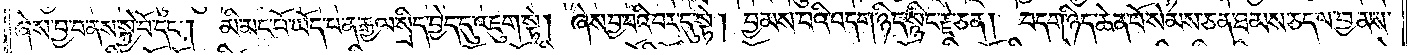ཞེས་བྱ་བ་ནས་སྐྱེ་བོ་དང༌།  མི་མང་པོ་ཡོད་པ་ན་རྒྱལ་སྲིད་བྱེད་དུ་འཇུག་སྟེ། ཞེས་བྱ་བའི་བར་དུ་སྟེ། བྱམས་པའི་བདག་ཉིད་སྙིང་རྗེ་ཅན། བདག་ཉིད་ཆེན་པོ་སེམས་ཅན་ཐམས་ཅད་ལ་བྱམས་
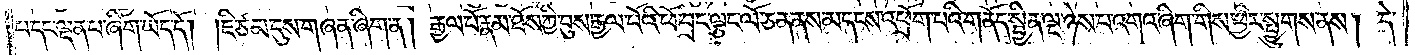པ་དང་ལྡན་པ་ཞིག་ཡོད་དོ། །ཇི་ཙམ་དུས་གཞན་ཞིག་ན། རྒྱལ་པོ་རྣམ་ཐོས་ཀྱི་བུས་རྒྱལ་པོའི་ཕོ་བྲང་ལྕང་ལོ་ཅན་ནས་མདངས་འཕྲོག་པའི་གནོད་སྦྱིན་ལྔ་ཉེས་པ་འགའ་ཞིག་གི་ཕྱིར་སྤྱུགས་ནས། དེ་
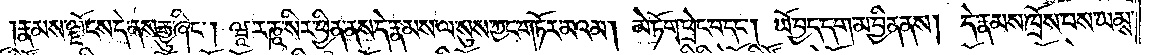།རྣམས་ལྗོངས་དེ་ནས་རྒྱུ་ཞིང༌། ཝཱ་ར་ཎཱ་སིར་ཕྱིན་ནས་དེ་རྣམས་ལ་སུས་ཀྱང་གཏོར་མའམ། མེ་ཏོག་ཕྲེང་བ་དང༌། ཡོ་བྱད་དག་མ་བྱིན་ནས། དེ་རྣམས་ཁྲོས་པས་ཡམས་
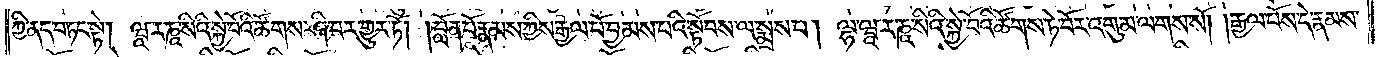ཀྱི་ནད་བཏང་སྟེ། ཝཱ་ར་ཎཱ་སིའི་སྐྱེ་བོའི་ཚོགས་ཤི་བར་གྱུར་ཏོ། །བློན་པོ་རྣམས་ཀྱིས་རྒྱལ་པོ་བྱམས་པའི་སྟོབས་ལ་སྨྲས་པ། ལྷ་ཝཱ་ར་ཎཱ་སིའི་སྐྱེ་བོའི་ཚོགས་ཏེ་བོར་འགུམ་ལགས་སོ། །རྒྱལ་པོས་དེ་རྣམས་
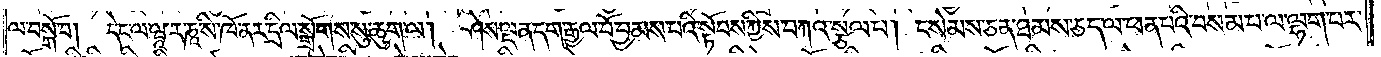ལ་བསྒོ་བ། དེང་ལ་ཝཱ་ར་ཎཱ་སི་ཁོ་ནར་དྲིལ་སྒྲོགས་སུ་ཆུག་ལ། ཤེས་ལྡན་དག་རྒྱལ་པོ་བྱམས་པའི་སྟོབས་ཀྱིས་བཀའ་སྩལ་པ། ང་སེམས་ཅན་ཐམས་ཅད་ལ་ཕན་པའི་བསམ་པ་ལ་ལྷག་པར་
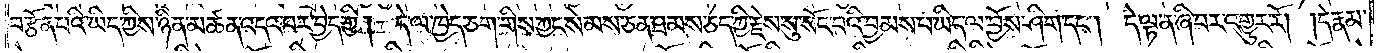བརྩོན་པའི་ཡིད་ཀྱིས་ཉིན་མཚན་འདའ་བར་བྱེད་ཀྱི། དེ་ལ་ཁྱེད་ཅག་གིས་ཀྱང་སེམས་ཅན་ཐམས་ཅད་ཀྱི་རྗེས་སུ་སོང་བའི་བྱམས་པ་ཡིད་ལ་བྱོས་ཤིག་དང༌། དེ་ལྟ་ན་ཞི་བར་འགྱུར་རོ། །དེ་རྣམ་
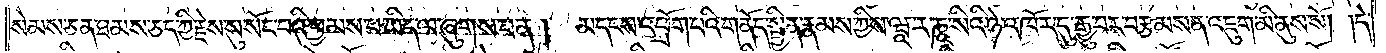སེམས་ཅན་ཐམས་ཅད་ཀྱི་རྗེས་སུ་སོང་བའི་བྱམས་པ་ཡིད་ལ་ཞུགས་པ་ན། མདངས་འཕྲོག་པའི་གནོད་སྦྱིན་རྣམས་ཀྱིས་ཝཱ་ར་ཎཱ་སིའི་ཉེ་འཁོར་དུ་རྒྱུ་བར་བརྩམས་ན་འཇུག་མི་ནུས་སོ། །དེ་
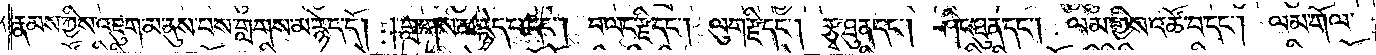རྣམས་ཀྱིས་འཇུག་མ་ནུས་པས་གླགས་མ་རྙེད་དོ། །གླགས་མ་རྙེད་པ་དང༌། བ་ལང་རྫི་དང༌། ལུག་རྫི་དང༌། རྩྭ་ཐུན་དང༌། ཤིང་ཐུན་དང༌། ལམ་གྱིས་འཚོ་བ་དང༌། ལམ་གོལ་
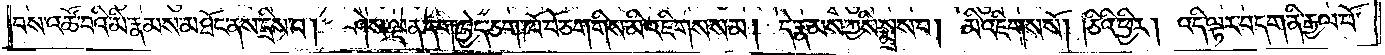བས་འཚོ་བའི་མི་རྣམས་མཐོང་ནས་དྲིས་པ། ཤེས་ལྡན་དག་ཁྱེད་ཅག་ཁོ་བོ་ཅག་གིས་མི་འཇིགས་སམ། དེ་རྣམས་ཀྱིས་སྨྲས་པ། མི་འཇིགས་སོ། །ཅིའི་ཕྱིར། འདི་ལྟར་བདག་ནི་རྒྱལ་པོ་
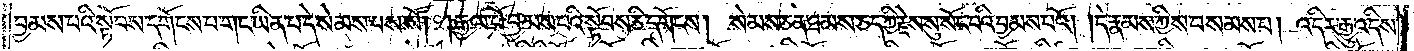བྱམས་པའི་སྟོབས་དགོངས་པ་གང་ཡིན་པ་དེ་སེམས་པས་སོ། །རྒྱལ་པོ་བྱམས་པའི་སྟོབས་ཅི་དགོངས། སེམས་ཅན་ཐམས་ཅད་ཀྱི་རྗེས་སུ་སོང་བའི་བྱམས་པའོ། །དེ་རྣམས་ཀྱིས་བསམས་པ། འདིར་རྒྱུ་འདིས་
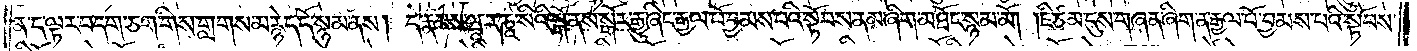ན་ད་ལྟར་བདག་ཅག་གིས་གླགས་མ་རྙེད་དོ་སྙམ་ནས། དེ་རྣམས་ཝཱ་ར་ཎཱ་སིའི་སྒོ་ནས་སྒོར་རྒྱུ་ཞིང་རྒྱལ་པོ་བྱམས་པའི་སྟོབས་ནམ་ཞིག་མཐོང་སྙམ་མོ། །ཇི་ཙམ་དུས་གཞན་ཞིག་ན་རྒྱལ་པོ་བྱམས་པའི་སྟོབས་
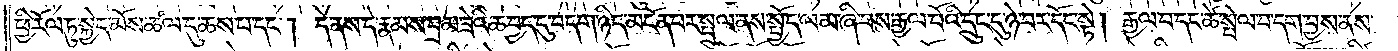ཕྱི་རོལ་ཏུ་སྐྱེད་མོས་ཚལ་དུ་ཆས་པ་དང༌། དེ་ནས་དེ་རྣམས་བྲམ་ཟེའི་ཆ་བྱད་དུ་བདག་ཉིད་མངོན་པར་སྤྲུལ་ནས་སྤྱོད་ལམ་ཞི་བས་རྒྱལ་པོའི་དྲུང་དུ་ཉེ་བར་དོང་སྟེ། རྒྱལ་བ་དང་ཚེ་སྤེལ་བ་དག་བྱས་ནས་
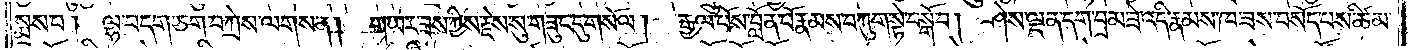སྨྲས་པ། ལྷ་བདག་ཅག་བཀྲེས་ལགས་ན། གཡར་ཟས་ཀྱིས་རྗེས་སུ་གཟུང་དུ་གསོལ། རྒྱལ་པོས་བློན་པོ་རྣམས་བཀུག་སྟེ་བསྒོ་བ། ཤེས་ལྡན་དག་བྲམ་ཟེ་འདི་རྣམས་ཁ་ཟས་བསོད་པས་ཚིམ་
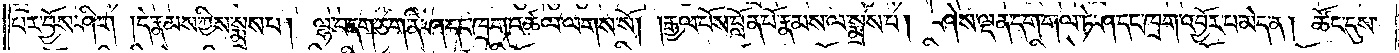པར་བྱོས་ཤིག །དེ་རྣམས་ཀྱིས་སྨྲས་པ། ལྷ་བདག་ཅག་ནི་ཤ་དང་ཁྲག་འཚལ་ལགས་སོ། །རྒྱལ་པོས་བློན་པོ་རྣམས་ལ་སྨྲས་པ། ཤེས་ལྡན་དག་གལ་ཏེ་ཤ་དང་ཁྲག་འབྱོར་པ་མེད་ན། ཚོང་དུས་
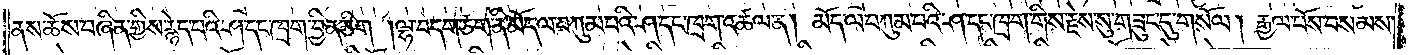ནས་ཆོས་བཞིན་གྱིས་རྙེད་པའི་ཤ་དང་ཁྲག་བྱིན་ཅིག །ལྷ་བདག་ཅག་ནི་མོད་ལ་བཀུམ་པའི་ཤ་དང་ཁྲག་འཚལ་ན། མོད་ལ་བཀུམ་པའི་ཤ་དང་ཁྲག་གིས་རྗེས་སུ་གཟུང་དུ་གསོལ། རྒྱལ་པོས་བསམས་
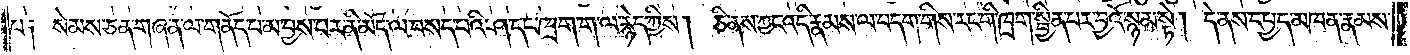པ༑ སེམས་ཅན་གཞན་ལ་གནོད་པ་མ་བྱས་པར་ནི་མོད་ལ་བསད་པའི་ཤ་དང་ཁྲག་ག་ལ་རྙེད་ཀྱིས། ཅི་ནས་ཀྱང་འདི་རྣམས་ལ་བདག་གིས་རང་གི་ཁྲག་སྦྱིན་པར་བྱའོ་སྙམ་སྟེ། དེ་ནས་དཔྱད་མཁན་རྣམས་
